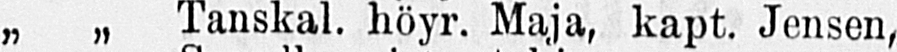„ „ Tanskal. höyr. Maja, kapt. Jensen,
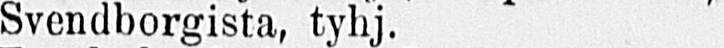Svendborgista tyhj.
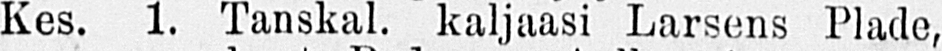Kes. 1. Tanskal. kaljaasi Larsens Plade,
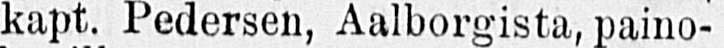kapt. Pedersen, Aalborgista, paino-
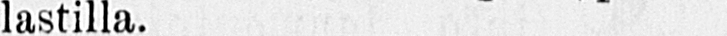lastilla.
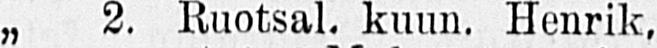„ 2. Ruotsal. kuun. Henrik,
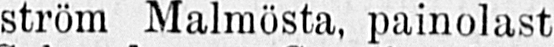ström Malmösta, painolast
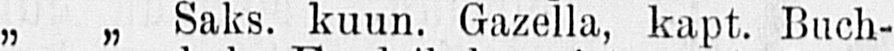„ „ Saks. kuun. Gazella, kapt. Buch-
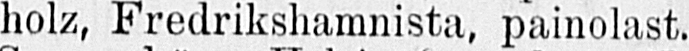hoz, Fredrikshamnista, painolast.
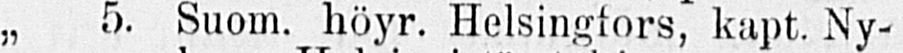„ 5. Suom. höyr. Helsingtors, kapt. Ny-
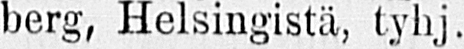berg, Helsingistä, tyhj.
